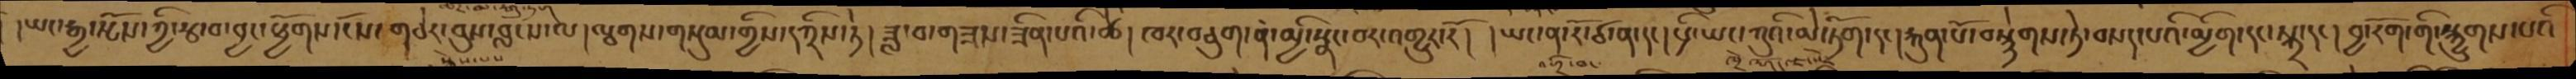།ཡང་རྒྱ་སྤོས་ཀྱི་རྩ་བ་བྱང་ཕྱོགས་དངོས་གཅེར་བུས་བླངས་ལ། ལྕགས་གསུམ་གྱིས་དཀྲིས་ཏེ། ཟླ་བ་གཟས་ཟིན་པའི་ཚེ། ཁར་བཅུག་ན་མྱི་སྣང་བར་འགྱུར་རོ། །ཡང་ན་རོ་ཙ་ན་དང། པྲི་ཡང་ཀུའི་མེ་ཏོག་དང། རྐུན་པོ་བསྙེགས་ཏེ་བསད་པའི་མྱིག་དང་སྐྲ་དང། བྱ་རོག་གི་སྐྱུགས་པའི
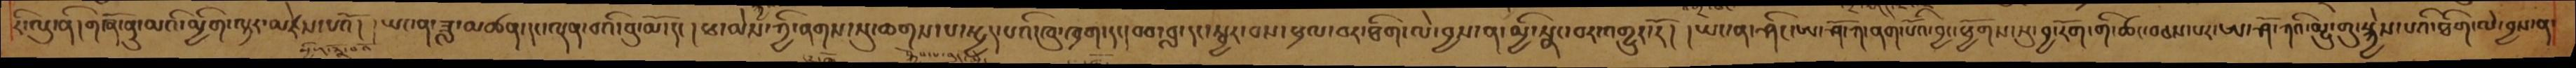རི་ལུ་ནི། གཞོ་ནུ་མའི་མྱིག་ལྟར་མཛེས་པའོ། །ཡང་ན་ཟླ་མཚན་དང་ལྡན་པའི་བུ་མོ་དང །ཕ་མེས་ཀྱི་ནགས་སུ་ཆགས་པ་སྤྱད་པའི་ཁུ་ཁྲག་དང། བབ་བླ་དང་སྦྱར་བས་ཕྲལ་བར་ཐིག་ལེ་བྱས་ན་མྱི་སྣང་བར་འགྱུར་རོ། །ཡང་ན་ཤིང་ཨ་ཤོ་ཀ་ནག་པོའི་བྱང་ཕྱོགས་སུ་བྱ་རོག་གི་ཚང་བཅས་པར་ཨ་ཤོ་ཀའི་མྱུ་གུ་སྐྱེས་པའི་ཐིག་ལེ་བྱས་ན་
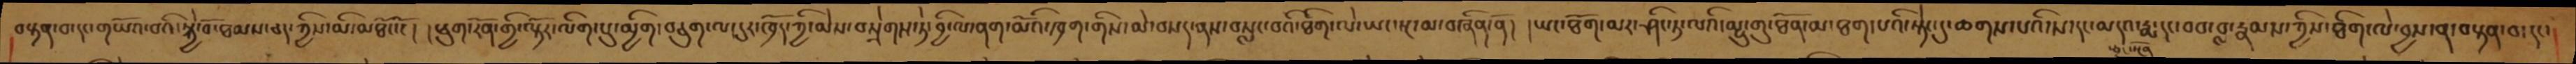བསྟན་བ་དང་གཡོའ་བའི་སྐྱེ་བོ་ཐམས་ཅད་ཀྱིས་མཐོང་ངོ། །ཕུག་རོན་གྱི་ལྟོར་ལིག་སུ་མྱིག་བཅུག་ལ་དུར་ཁྲོད་ཀྱི་མེས་བསྲེགས་ཏེ།བྱི་ལ་ནག་མོའི་ཁྲག་གིས་མེ་བསད་ནས་བསླང་བའི་ཐིག་ལེ་ཡང་སྔ་མ་བཞིན་ནོ། །ཡང་ཐོག་མར་ཤིང་ཏ་ལའི་མྱུ་གུ་ཐོན་མ་ཐག་པའི་སྟེང་དུ་ཆགས་པའི་ས་དང་མདའ་རྨ་དང་བབ་བླ་རྣམས་ཀྱིས་ཐིག་ལེ་བྱས་ན་བསྟན་བ་དང་
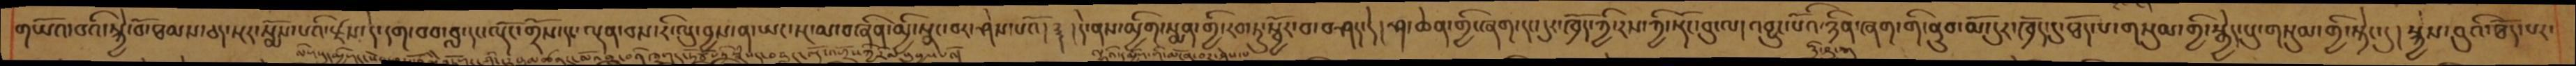གཡོའ་བའི་སྐྱེ་བོ་ཐམས་ཅད་སྔར་སྨོས་པའི་རྫས་དེ་དག་བབ་བླ་དང་ལྡོང་གྲོས་དང་ལྡན་བས་རི་ལུ་བྱས་ན་ཡང་སྔ་མ་བཞིན་མྱི་སྣང་བར་ཤེས་པའོ། ༈ །དེ་ནས་མྱིག་སྨན་གྱི་རབ་ཏུ་སྦྱོར་བ་བཤད་དེ། ཤ་ཆེན་གྱི་ཞག་དང་དུར་ཁྲོད་ཀྱི་རས་ཀྱི་སྡོང་བུ་ལ། འབྱུང་པོའི་ཉིན་ཞག་གི་ནུབ་མོ་དུར་ཁྲོད་དུ་ཐོད་པ་གསུམ་གྱི་སྒྱེད་པུ་གསུམ་གྱི་སྟེང་དུ། སྐྱེས་བུའི་ཐོད་པར་
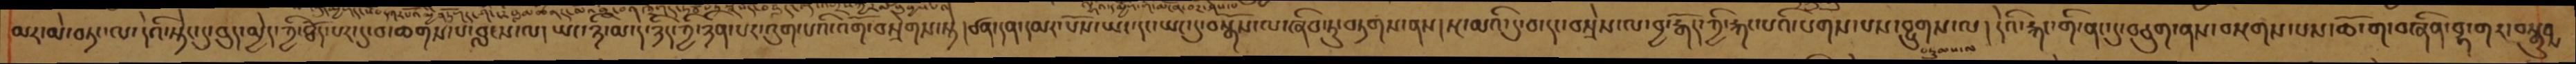མར་མེ་བཏང་ལ་དེའི་སྟེང་དུ་བུད་མྱེད་ཀྱི་ཐོད་པར་དུ་བ་ཆགས་པ་བླངས་ལ། ཡང་ཉི་མ་དེ་ཉིད་ཀྱི་ཉིན་པར་འུག་པའི་འགོ་བསྲེགས་སྟེ །ཙན་དན་དམར་པོས་ཡང་དང་ཡང་དུ་བསྒོས་ལ་ཞིབ་ཏུ་བཏགས་ནས།སྔ་མའི་དུ་བ་དང་བསྲེས་ལ་བྱ་རྒོད་ཀྱི་རྐང་པའི་པགས་པས་བྱུགས་ལ། དེའི་རྐང་གི་ནང་དུ་བཅུག་ནས་བསགས་པས་ཆོ་ག་བཞིན་བྷ་གར་བསྒྲུབས
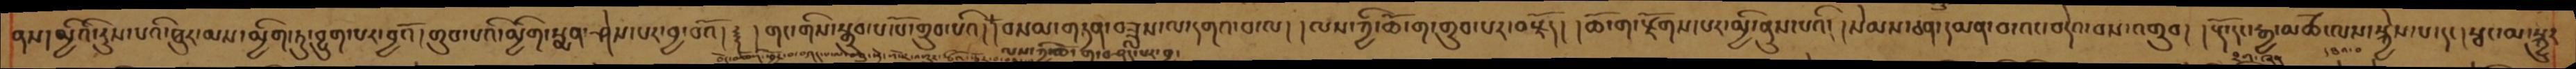ནས།མྱིའི་རུས་པའི་ཐུར་མས་མྱིག་ཏུ་བྱུག་པར་བྱའོ ། གྲུབ་པའི་མྱིག་སྨན་ཤེས་པར་བྱ་བའོ། ༈ །གང་གིས་སྒྲུབ་པ་པོ་གྲུབ་པའི། །བསམ་གཏན་བཟླས་ལ་དགའ་བ་ལ། །ལས་ཀྱི་ཆོ་ག་གྲུབ་པར་བརྗོད། །ཆོ་ག་རྫོགས་པར་མྱི་ནུས་པའི། །སེམས་ཅན་དམན་བ་འང་བདེའ་བས་འགྲུབ། །རྡོ་དང་རྒྱ་མཚོ་ལས་སྐྱེས་པ་དང །སྦང་མ་སྐྱུར
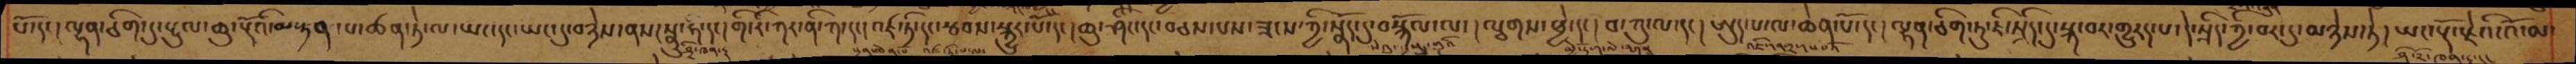པོ་དང་ །ལྷན་ཅིག་དུ་རྔུལ་ཆུ་རྡོའི་མ་ཏན་པ་ཚན་ཏེ་ལ་ཡང་དང་ཡང་བཉེས་ནས་སྣུ་ཧ་དང།གི་རི་ཀར་ནི་ཀ་དང། འཛ་ཏི་དངརྩབས་སྐྱུར་པོ་དང།ཆུ་ཤིང་དང་བཅས་པས་ཟངས་ཀྱི་སྣོད་དུ་བསྐོལ་ལ།ལྕགས་ཕྱེ་དང།བ་ཀུ་ལ་དང།ཨུད་པ་ལ་ཆེན་པོ་དང་།ལྷན་ཅིག་ཏུ་ཇི་སྲིད་དུ་སྐ་བར་གྱུརད་པ་དེ་སྲིད་ཀྱི་བར་དུ་མཉེས་ཏེ་ཡང་རྡོ་རྗེའི་འོ་མ
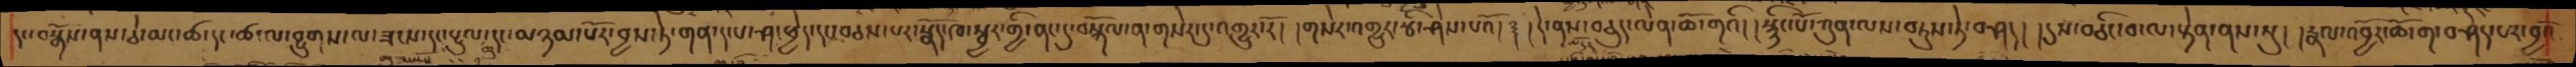དང་བསྒོས་ནས་ཅེ་མང་ཚ་དང་ཚ་ལ་བྱུགས་ལ་ཟངས་དང་རྔུལ་ཆུ་དང་མཉམ་པོར་བྱས་ཏེ་གན་ད་པ་ཤ་ཕྱེད་དང་བཅས་པར་སྣོད་ཁ་སྦྱར་གྱི་ནང་དུ་བསྐོལ་ན་གསེར་དུ་འགྱུར་རོ། །གསེར་འགྱུར་རྩི་ཤེས་པའོ། ༈ །དེ་ནས་བཅུད་ལེན་ཆོ་གའི། །སྙིང་པོ་ཀུན་ལས་བཏུས་ཏེ་བཤད། །དུས་བཅིང་བ་ལ་བསྟེན་ནས་སུ། །རྣལ་འབྱོར་ཆོ་ག་བཤད་པར་བྱའོ
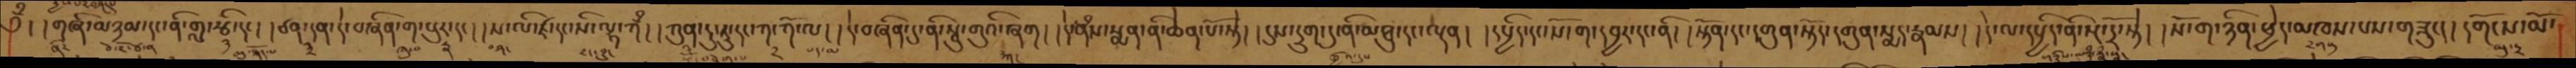༅ྃ། །གཞི་མཉམ་དང་ནི་གླ་རྩི་དང། །ཙན་དན་དེ་བཞིན་ག་པུར་དང། །ས་ལ་ཛི་དང་སི་ལྷ་ཀྃ། ཀུན་དུ་རུ་དང་ཀ་ཀོ་ལ། །དེ་བཞིན་དུ་ནི་སྦུ་གུའི་ཞག། །དེ་ནཾས་སྨན་ནི་ཆེན་པོ་སྟེ། །དུས་དྲུག་དུ་ནི་མཐུ་དང་ལྡན། །དཔྱིད་དང་སོ་ག་དབྱར་དང་ནི། །སྟོན་དང་དགུན་སྟོད་དགུན་སྨད་རྣམས། །དེ་ལ་དཔྱིད་ནི་སྔ་དྲོ་སྟེ། །སོ་ག་ཉིན་ཕྱེད་མཁས་པས་གཟུང། །དགོངས་མོ་
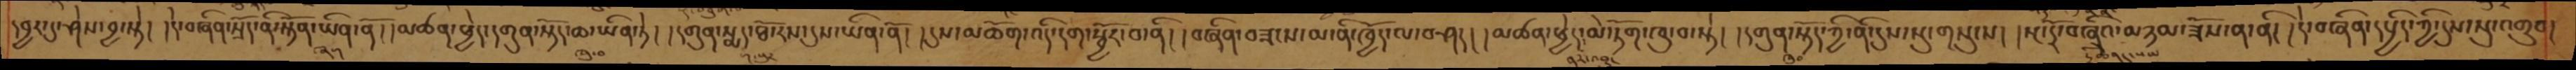དབྱར་དུ་ཤེས་བྱ་སྟེ། །དེ་བཞིན་སྲོད་ནི་སྟོན་ཡིན་ནོ། །མཚན་ཕྱེད་དགུན་སྟོད་ཆ་ཡིན་ཏེ། །དགུན་སྨད་ཐོ་རས་དུས་ཡིན་ནོ། །དུས་མཆོག་འདི་དག་སྦྱོར་བ་ནི། །བཞིན་བཟངས་མ་ནི་ཁྱོད་ལ་བཤད། །མཚན་ཕྱེད་མེ་ཏོག་ཁུ་བ་སྟེ། །དགུན་སྟོད་ཀྱི་ནི་དུས་སུ་གསུངས། །སྔ་དྲོ་བཞིའི་མཉམ་ཟོས་ན་ནི། །དེ་བཞིན་དཔྱིད་ཀྱི་དུས་སུ་འགྲུབ།
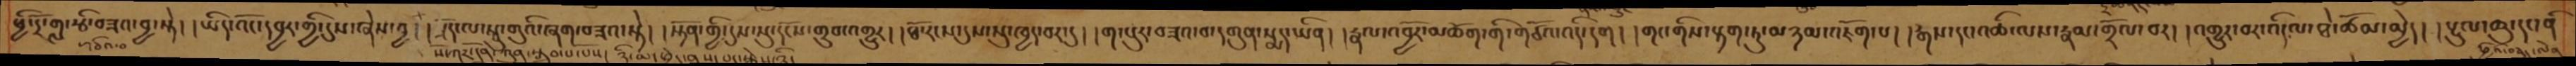ཕྱི་དྲོ་གླ་རྩི་བཟའ་བྱ་སྟེ། །ཡིད་འོང་དབྱར་གྱི་དུས་ཞེས་བྱ། །སྲོད་ལ་སྦུ་གུའི་ཞག་བཟའ་སྟེ། །སྟོན་གྱི་དུས་སུ་དངོས་གྲུབ་འགྱུར། །ཐོ་རངས་དུས་སུ་ཁྱད་པར་དུ། །ག་པུར་བཟའ་བ་དགུན་སྨད་ཡིན། །རྣལ་འབྱོར་མཆོག་གི་གཙོའ་འདི་དག། །གང་གིས་རྒ་ཏུ་མཉམ་འཇོག་པ། །རྒས་དང་འཆི་ལས་རྣམ་གྲོལ་བར། །འགྱུར་བར་འདི་ལ་ཐེ་ཚོམ་མྱེད། །རྔུལ་ཆུ་དང་ནི
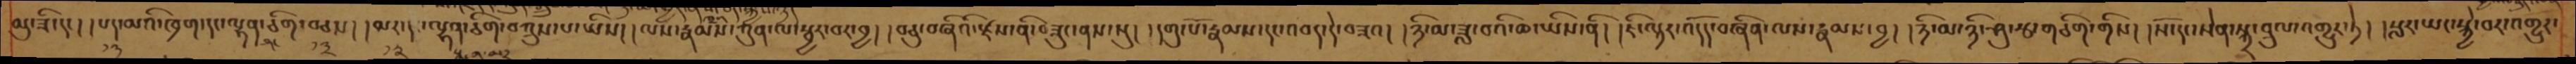མུ་ཟི་དང། །པད་མའི་ཁྲག་དང་ལྷན་ཅིག་བཅས། །མར་དང་ལྷན་ཅིག་བཀྲུས་པ་ཡིས། །ལས་རྣམས་ཀུན་ལ་སྦྱར་བར་བྱ། །བཅུ་བཞིའི་རྫས་ནི་བཟུང་ནས་སུ། །དགུ་པོ་རྣམས་དང་འབད་དེ་བཟའ། །ཉི་མ་ཟླ་བའི་ཆ་ཡིས་ནི། །ཇི་ལྟར་འདོད་བཞིན་ལས་རྣམས་བྱ། །ཉི་མ་ཉི་ཤུ་རྩ་གཅིག་གིས། །སོ་དང་སེན་སྐྲ་བྲུལ་འགྱུར་ཏེ། །སླར་ཡང་སྐྱེ་བར་འགྱུར་
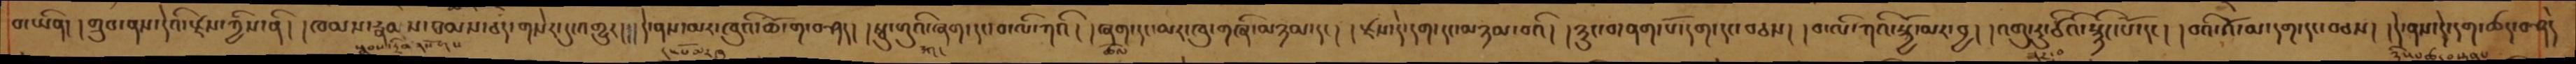བ་ཡིན། །གྲུབ་ནས་དེའི་རྫས་ཀྱིས་ནི། །ཁམས་རྣམས་ཐམས་ཅད་གསེར་དུ་འགྱུར།།།དེ་ནས་མར་ཁུའི་ཆོ་ག་བཤད། །སྦུ་གུའི་ཞག་དང་བ་ལི་ཀའི། །ཞག་དང་མར་ཁུ་གཞི་མཉམ་དང། །རྫས་དེ་དག་དང་མཉམ་བའི། །ཉུང་བ་ནག་པོ་དག་དང་བཅས། །བ་ལི་ཀའི་སྐྱོ་མར་བྱ། །འགུ་རུ་ཙིའི་སྙིང་པོ་དང། །བའི་འོ་མ་དག་དང་བཅས། །དེ་ནས་ད་ེགད་ཚད་པ་ནི།
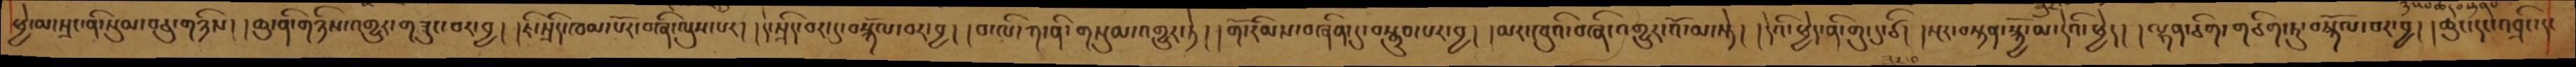ཕྱེ་མ་སྲང་ནི་སུམ་བཅུ་གཉིས། །ཆུ་ནི་གཉིས་འགྱུར་གཟུང་བར་བྱ། །ཇི་སྲིད་ཁམ་པོར་བཞི་ལུས་པར། །དེ་སྲིད་བར་དུ་བསྐོལ་བར་བྱ། །བ་ལི་ཀ་ནི་གསུམ་འགྱུར་ཏེ། །གོ་རིམས་བཞི་ན་དུ་བསྒྲུབ་པར་བྱ། །མར་ཁུའི་བཞི་འགྱུར་འོ་མ་སྟེ། །དེའི་ཕྱེད་ནི་གུ་དུ་ཙི། །སྔར་བསྟན་སྐྱོ་མ་དེའི་ཕྱེད། །ལྷན་ཅིག་གཅིག་ཏུ་བསྐོལ་བར་བྱ། །ཆུང་དངའབྲིང་དང
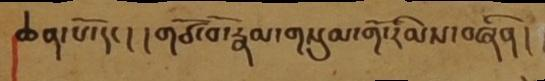ཆེན་པོ་དང ། ། གཙོ་བོ་རྣམ་གསུམ་གོ་རིམས་བཞིན །
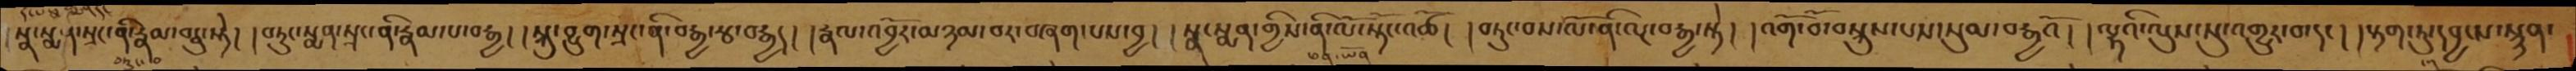སྣ་སྨད་སྲང་ནི་རྣམ་བཅུ་སྟེ། །བཏུང་སྨན་སྲང་ནི་རྣམ་པ་བརྒྱ། །སྐུ་བྱུག་སྲང་ནི་བརྒྱ་རྩ་བརྒྱད། །རྣལ་འབྱོར་མཉམ་བར་བཞག་པས་བྱ། །སྣ་སྨན་གྱིས་ནི་ལོ་སྟོང་འཚོ། །བཏུང་བས་ལོ་ནི་ལྔ་བརྒྱ་སྟེ། །འགོ་བོ་བསྐུས་པས་སུམ་བརྒྱའོ། །ལྷའི་ལུས་སུ་འགྱུར་བ་དང། །རྟག་ཏུ་དབྱངས་སྙན་
